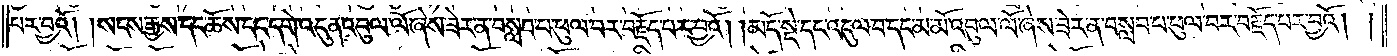པར་བྱའོ། །སངས་རྒྱས་དང་ཆོས་དང་དགེ་འདུན་འབུལ་ལོ་ཞེས་ཟེར་ན་བསླབ་པ་ཕུལ་བར་བརྗོད་པར་བྱའོ། །མདོ་སྡེ་དང་འདུལ་བ་དང་མ་མོ་འབུལ་ལོ་ཞེས་ཟེར་ན་བསླབ་པ་ཕུལ་བར་བརྗོད་པར་བྱའོ། །
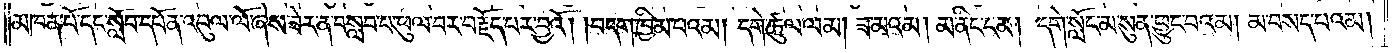མཁན་པོ་དང་སློབ་དཔོན་འབུལ་ལོ་ཞེས་ཟེར་ན་བསླབ་པ་ཕུལ་བར་བརྗོད་པར་བྱའོ། །བདག་ཁྱིམ་པའམ། དགེ་ཚུལ་ལམ། ཟ་མའམ། མ་ནིང་ངམ། དགེ་སློང་མ་སུན་ཕྱུང་བའམ། མ་བསད་པའམ།
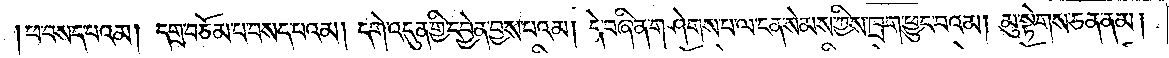།ཕ་བསད་པའམ། དགྲ་བཅོམ་པ་བསད་པའམ། དགེ་འདུན་གྱི་དབྱེན་བྱས་པའམ། དེ་བཞིན་གཤེགས་པ་ལ་ངན་སེམས་ཀྱིས་ཁྲག་ཕྱུང་བའམ། མུ་སྟེགས་ཅན་ནམ།
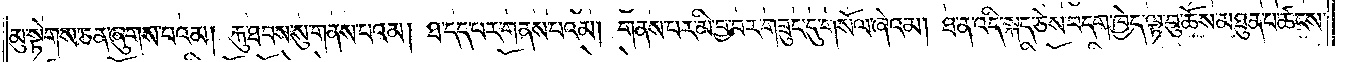མུ་སྟེགས་ཅན་ཞུགས་པའམ། རྐུ་ཐབས་སུ་གནས་པའམ། ཐ་དད་པར་གནས་པའམ། གནས་པར་མི་བྱ་བར་གཟུང་དུ་གསོལ་ཞེའམ། ཐ་ན་འདི་སྐད་ཅེས་བདག་ཁྱེད་ལྟ་བུ་ཆོས་མཐུན་པ་ཚངས་
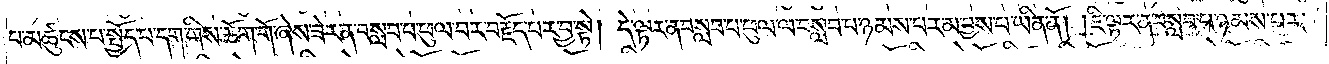པ་མཚུངས་པ་སྤྱོད་པ་དག་གིས་ཆོག་གོ་ཞེས་ཟེར་ན་བསླབ་པ་ཕུལ་བར་བརྗོད་པར་བྱ་སྟེ། དེ་ལྟར་ན་བསླབ་པ་ཕུལ་ལ་བསླབ་པ་ཉམས་པར་མ་བྱས་པ་ཡིན་ནོ། །ཇི་ལྟར་ན་བསླབ་པ་ཉམས་པར་
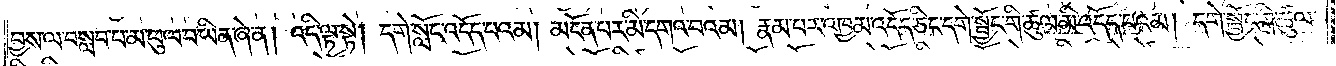བྱས་ལ་བསླབ་པ་མ་ཕུལ་བ་ཡིན་ཞེ་ན། འདི་ལྟ་སྟེ། དགེ་སློང་འདོད་པའམ། མངོན་པར་མི་དགའ་བའམ། རྣམ་པར་འཁྱམ་འདོད་ཅིང་དགེ་སྦྱོང་གི་ཚུལ་མི་འདོད་པའམ། དགེ་སྦྱོང་གི་ཚུལ་
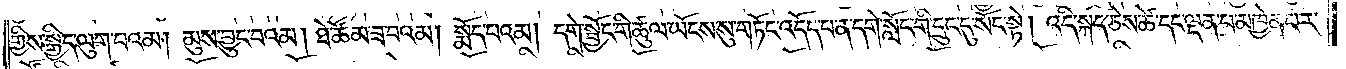གྱིས་སྒྱིད་ལུག་པའམ། མུས་བྱུང་བའམ། ཐེ་ཚོམ་ཟ་བའམ། སྨོད་པའམ། དགེ་སྦྱོང་གི་ཚུལ་ཡོངས་སུ་གཏོང་འདོད་པ་ན་དགེ་སློང་གི་དྲུང་དུ་སོང་སྟེ། འདི་སྐད་ཅེས་ཚེ་དང་ལྡན་པ་མཁྱེན་པར་
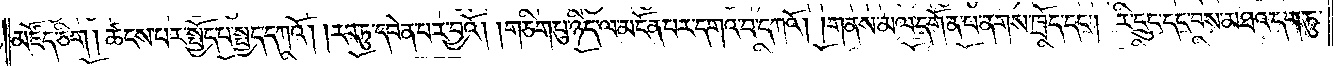མཛོད་ཅིག །ཚངས་པར་སྤྱོད་པ་སྤྱད་དཀའོ། །རབ་ཏུ་དབེན་པར་བྱའོ། །གཅིག་པུ་ཉིད་ལ་མངོན་པར་དགའ་བ་དཀའོ། །གནས་མལ་དགོན་པ་ནགས་ཁྲོད་དང༌། རི་དྲུང་དང་བས་མཐའ་དག་ཏུ་
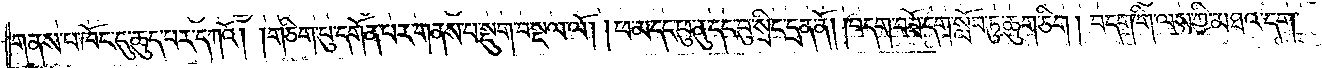གནས་པ་ཁོང་དུ་ཆུད་པར་དཀའོ། །གཅིག་པུ་དགོན་པར་གནས་པ་སྡུག་བསྔལ་ལོ། །ཕ་མ་དང་ཕུ་ནུ་དང་བུ་སྲིང་དྲན་ནོ། །བདག་བཟོ་དག་སློབ་ཏུ་ཆུག་ཅིག །བདག་གི་ལས་ཀྱི་མཐའ་དག་
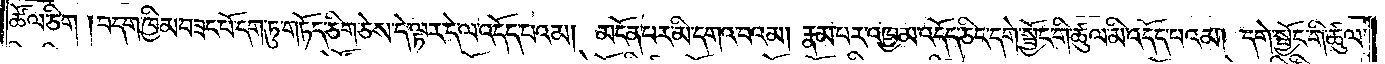ཚོལ་ཅིག །བདག་ཁྱིམ་བཟང་པོ་དག་ཏུ་གཏོད་ཅིག་ཅེས་དེ་ལྟར་དེ་ལ་འདོད་པའམ། མངོན་པར་མི་དགའ་བའམ། རྣམ་པར་འཁྱམ་འདོད་ཅིང་དགེ་སྦྱོང་གི་ཚུལ་མི་འདོད་པའམ། དགེ་སྦྱོང་གི་ཚུལ་
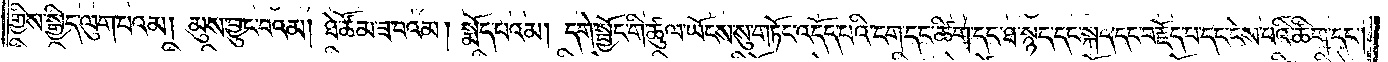གྱིས་སྒྱིད་ལུག་པའམ། མུས་བྱུང་བའམ། ཐེ་ཚོམ་ཟ་བའམ། སྨོད་པའམ། དགེ་སྦྱོང་གི་ཚུལ་ཡོངས་སུ་གཏོང་འདོད་པའི་ངག་དང་ཚིག་དང་ཐ་སྙད་དང་སྐད་དང་བརྗོད་པ་དང་ངེས་པའི་ཚིག་དང༌།
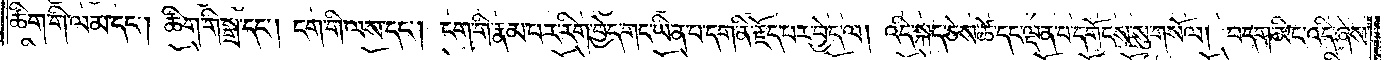ཚིག་གི་ལམ་དང༌། ཚིག་གི་སྒྲ་དང༌། ངག་གི་ལས་དང༌། ངག་གི་རྣམ་པར་རིག་བྱེད་གང་ཡིན་པ་དག་ནི་རྗོད་པར་བྱེད་ལ། འདི་སྐད་ཅེས་ཚེ་དང་ལྡན་པ་དགོངས་སུ་གསོལ། བདག་མིང་འདི་ཞེས་
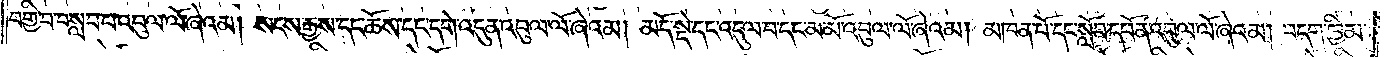བགྱི་བ་བསླབ་པ་འབུལ་ལོ་ཞེའམ། སངས་རྒྱས་དང་ཆོས་དང་དགེ་འདུན་འབུལ་ལོ་ཞེའམ། མདོ་སྡེ་དང་འདུལ་བ་དང་མ་མོ་འབུལ་ལོ་ཞེའམ། མཁན་པོ་དང་སློབ་དཔོན་འབུལ་ལོ་ཞེའམ། བདག་ཁྱིམ་
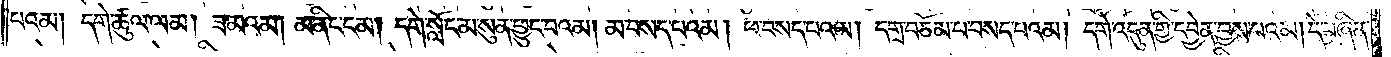པའམ། དགེ་ཚུལ་ལམ། ཟ་མའམ། མ་ནིང་ངམ། དགེ་སློང་མ་སུན་ཕྱུང་བའམ། མ་བསད་པའམ། ཕ་བསད་པའམ། དགྲ་བཅོམ་པ་བསད་པའམ། དགེ་འདུན་གྱི་དབྱེན་བྱས་པའམ། དེ་བཞིན་
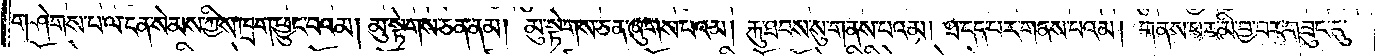གཤེགས་པ་ལ་ངན་སེམས་ཀྱིས་ཁྲག་ཕྱུང་བའམ། མུ་སྟེགས་ཅན་ནམ། མུ་སྟེགས་ཅན་ཞུགས་པའམ། རྐུ་ཐབས་སུ་གནས་པའམ། ཐ་དད་པར་གནས་པའམ། གནས་པར་མི་བྱ་བར་གཟུང་དུ་
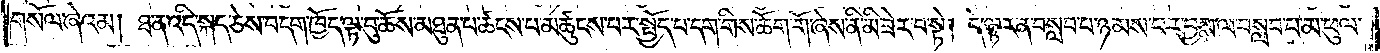གསོལ་ཞེའམ། ཐ་ན་འདི་སྐད་ཅེས་བདག་ཁྱོད་ལྟ་བུ་ཆོས་མཐུན་པ་ཚངས་པ་མཚུངས་པར་སྤྱོད་པ་དག་གིས་ཆོག་གོ་ཞེས་ནི་མི་ཟེར་བ་སྟེ། དེ་ལྟར་ན་བསླབ་པ་ཉམས་པར་བྱས་ལ་བསླབ་པ་མ་ཕུལ་
